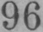96
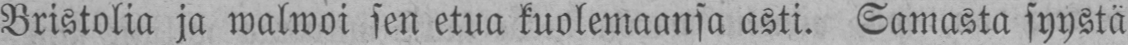Bristolia ja walwoi sen etua kuolemaansa asti. Samasta syystä
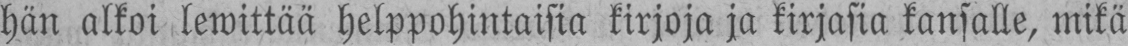hän alkoi lewittää helppohintaisia kirjoja ja kirjasia kansalle, mikä
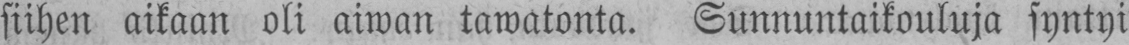siihen aikaan oli aiwan tawatonta. Sunnuntaikouluja syntyi
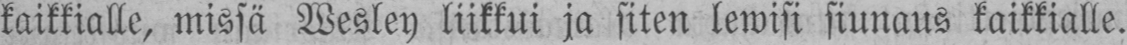kaikkialle, missä Wesley liikkui ja siten lewisi siunaus kaikkialle.
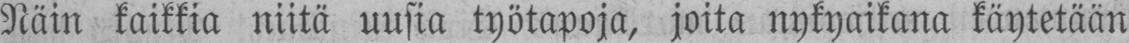Näin kaikkia niitä uusia työtapoja, joita nykyaikana käytetään
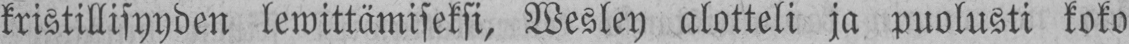kristillisyyden lewittämiseksi, Wesley alotteli ja puolusti koko
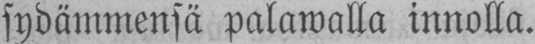sydämmensä palawalla innolla.
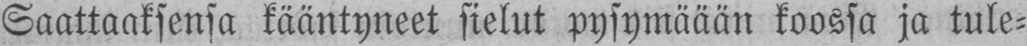Saattaaksensa kääntyneet sielut pysymäään koossa ja tule-
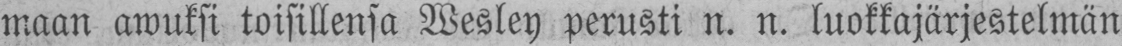maan awuksi toisillensa Wesley perusti n. n. luokkajärjestelmän,
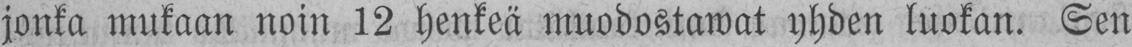jonka mukaan noin 12 henkeä muodostawat yhden luokan. Sen
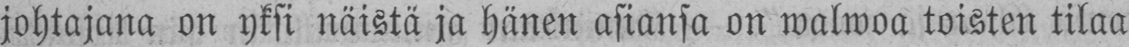johtajana on yksi näistä ja hänen asiansa on walwoa toisten tilaa
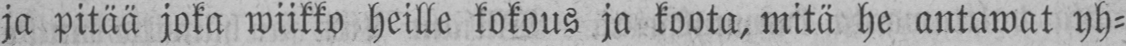ja pitää joka wiikko heille kokous ja koota, mitä he antawat yh-
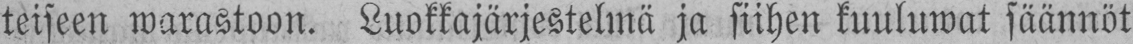teiseen warastoon. Luokkajärjestelmä ja siihen kuuluwat säännöt
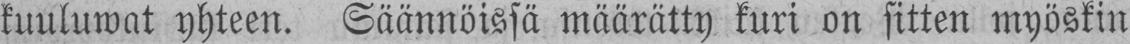kuuluwat yhteen. Säännöissä määrätty kuri on sitten myöskin
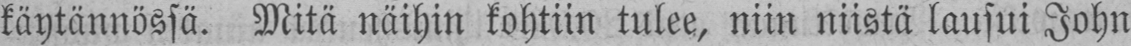käytännössä. Mitä näihin kohtiin tulee, niin niistä lausui John
